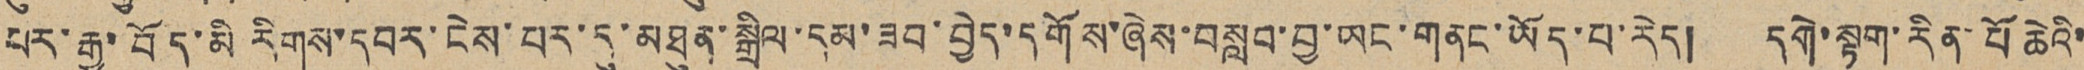པར་རྒྱ་བོད་མི རིགས་དབར་ངེས་པར་དུ་མཐུན་སྒྲིལ་དམ་ཟབ་བྱེད་དགོས་ཞེས་བསླབ་བྱ་ཡང་གནང་ཡོད་པ་རེད། དགེ་སྟག་རིན་པོ ཆེའི་
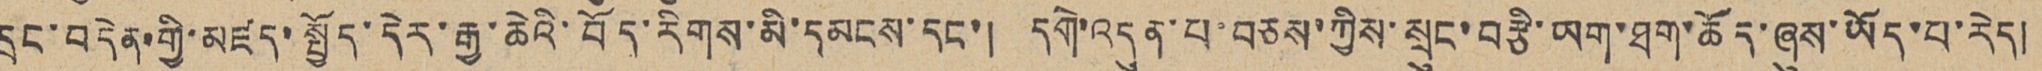དྲང་བདེན་གྱི་མཛད་སྤྱོད་དེར་རྒྱ་ཆེའི་བོད་རིགས་མི་དམངས་དང་། དགེ་འདུན་པ་བཅས་ཀྱིས་སྲུང་བརྩི་ཡག་ཐག་ཆོད་ཞུས་ཡོད་པ་རེད།
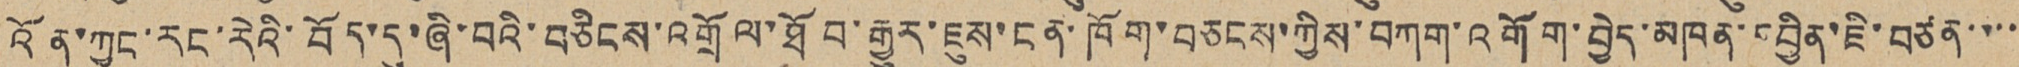འོན་ཀྱང་རང་རེའི་བོད་དུ་ཞི་བའི་བཅིངས་འགྲོལ་ཐོབ་རྒྱུར་ཇུས་ངན་ཁོག་བཅངས་ཀྱིས་བཀག་འགོག་བྱེད་མཁན་དབྱིན་ཇི་བཙན་་་་
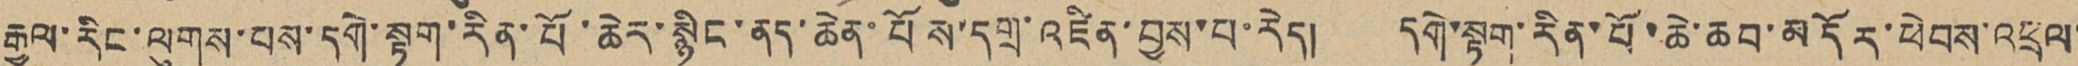རྒྱལ་རིང་ལུགས་པས་དགེ་སྟག་རིན་པོ་ཆེར་སྙིང་ནད་ཆེན་པོས་དགྲ་འཛིན་བྱས་པ་རེད། དགེ་སྟག་རིན་པོ་ཆེ་ཆབ་མདོར་ཕེབས་འཕྲལ་
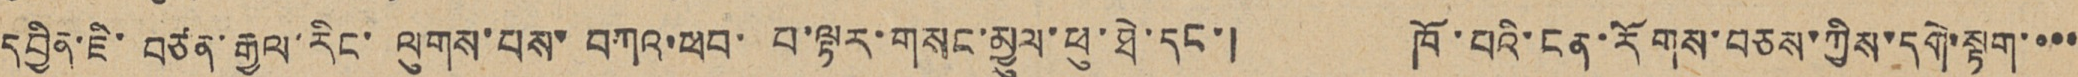དབྱིན་ཇི་ བཙན་རྒྱལ་རིང་ ལུགས་པས་ བཀའ་ཕབ་ བ་ལྟར་གསང་མྱུལ་ཕུ་ཐེ་དང་། ཁོ་བའི་ངན་རོགས་བཅས་ཀྱིས་དགེ་སྟག་་་་
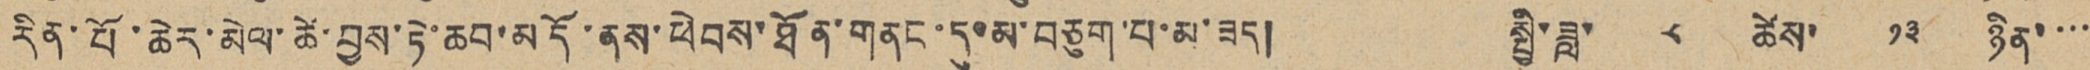རིན་པོ་ཆེར་མེལ་ཚེ་བྱས་ཏེ་ཆབ་མདོ་ནས་ཕེབས་ཐོན་གནང་དུ་མ་བཅུག་པ་མ་ཟད། སྤྱི་ཟླ་ ༨ ཚེས་ ༡༣ ཉིན་་་་
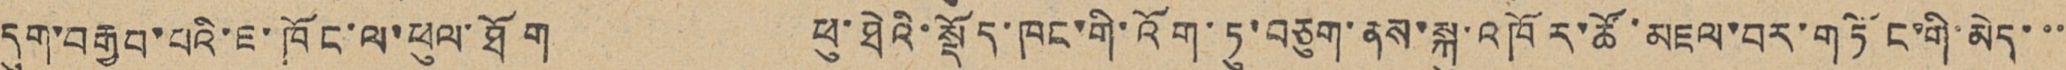དུག་བརྒྱབ་པའི་ཇ་ཁོང་ལ་ཕུལ་ཐོག ཕུ་ཐེའི་སྡོད་ཁང་གི་འོག་ཏུ་བཅུག་ནས་སྐུ་འཁོར་ཚོ་མཇལ་བར་གཏོང་གི་མེད་་་་
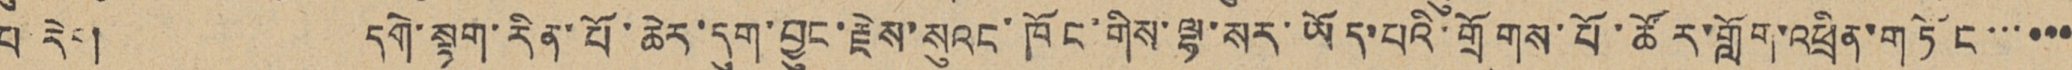པ རེད། དགེ་སྟག་རིན་པོ་ཆེར་དུག་བྱུང་རྗེས་སུའང་ཁོང་གིས་ལྷ་སར་ཡོད་པའི་གྲོགས་པོ་ཚོར་གློག་འཕྲིན་གཏོང་་་་་་
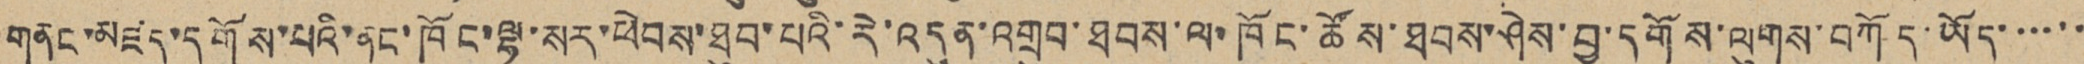གནང་མཛད་དགོས་པའི་ནང་ཁོང་ལྷ་སར་ཕེབས་ཐུབ་པའི་རེ་འདུན་འགྲུབ་ཐབས་ལ་ཁོང་ཚོས་ཐབས་ཤེས་བྱ་དགོས་ལུགས་བཀོད་ཡོད་་་་་་
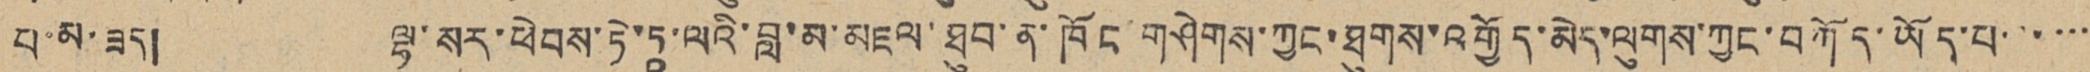པ་མ་ཟད། ལྷ་སར་ཕེབས་ཏེ་ཏཱ་ལའི་བླ་མ་མཇལ་ཐུབ་ན་ཁོང་གཤེགས་ཀྱང་ཐུགས་འགྱོད་མེད་ལུགས་ཀྱང་བཀོད་ཡོད་པ་་་་་་
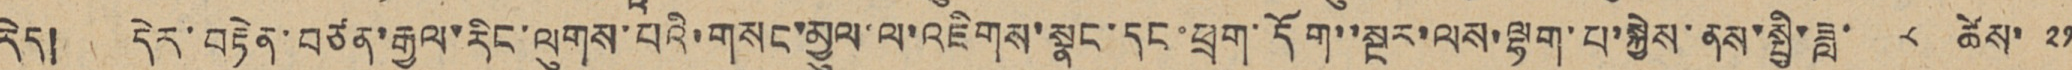རེད། དེར་བརྟེན་བཙན་རྒྱལ་རིང་ལུགས་པའི་གསང་མྱུལ་ལ་འཇིགས་སྣང་དང་ཕྲག་དོག་་སྔར་ལས་ལྷག་པ་སྐྱེས་ནས་སྤྱི་ཟླ་ ༨ ཚེས་ ༢༡
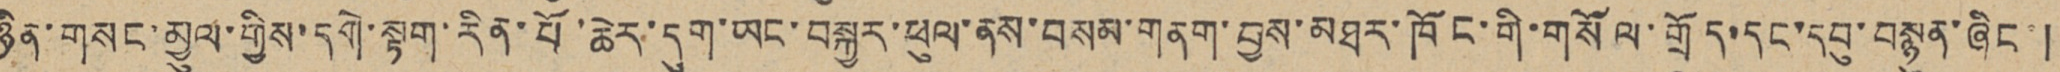ཉིན་གསང་མྱུལ་གྱིས་དགེ་སྟག་རིན་པོ་ཆེར་དུག་ཡང་བསྐྱར་ཕུལ་ནས་བསམ་གནག་བྱས་མཐར་ཁོང་གི་གསོལ་གྲོད་དང་དབུ་བསྙུན་ཞིང་།
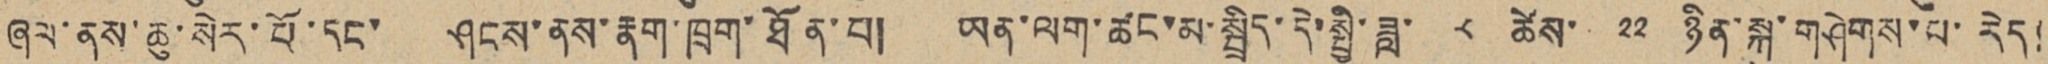ཞལ་ནས་ཆུ་སེར་པོ་དང་ ཤངས་ནས་རྣག་ཁྲག་ཐོན་པ། ཡན་ལག་ཚང་མ་སྦྲིད་དེ་སྤྱི་ཟླ་ ༨ ཚེས་ ༢༢ ཉིན་སྐུ་གཤེགས་པ་རེད།
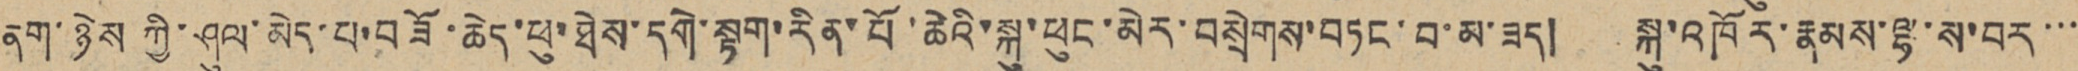ནག་ཉེས ཀྱི་ཤུལ་མེད་པ་བཟོ་ཆེད་ཕུ་ཐེས་དགེ་སྟག་རིན་པོ་ཆེའི་སྐུ་ཕུང་མེར་བསྲེགས་བཏང་བ་མ་ཟད། སྐུ་འཁོར་རྣམས་ལྷ་ས་བར་་་
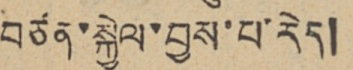བཙན་སྐྱེལ་བྱས་པ་རེད།
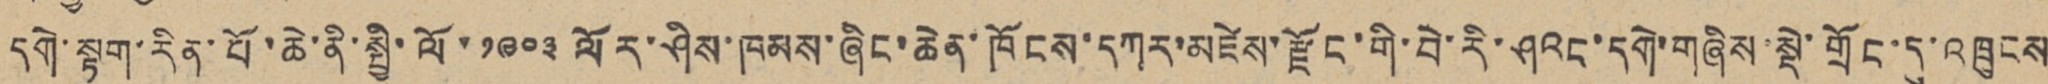དགེ་སྟག་རིན་པོ་ཆེ་ནི་སྤྱི་ལོ་༡༩༠༣ལོར་ཤིས་ཁམས་ཞིང་ཆེན་ཁོངས་དཀར་མཛེས་རྫོང་གི་བེ་རི་ཤའང་དགེ་གཞིས་སྡེ་གྲོང་དུ་འཁྲུངས
